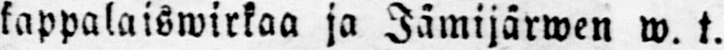kappalaiswirkaa ja Jämijärwen w. t.
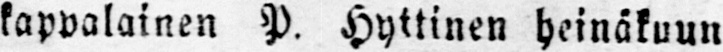kappalainen P. Hyttinen heinäkuun
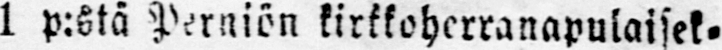1 p:stä Perniön kirkkoherranapulaisek-
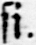si.
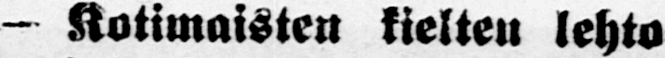- Kotimaisten kielten lehto-
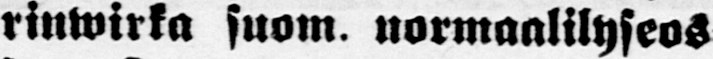rinwirka suom. normaalilyseos-
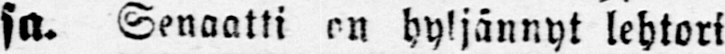sa. Senaatti on hyljännyt lehtori
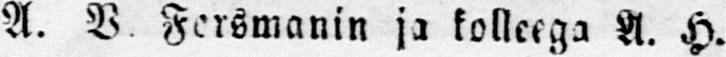A. V Forsmanin ja kolleega A. H.
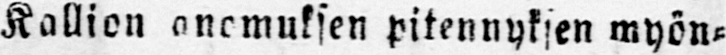Kallion anomuksen pitennyksen myön-
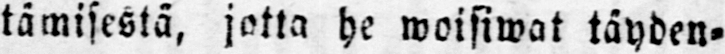tämisestä, jotta he woisiwat täyden-
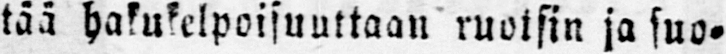tää hakukelpoisuuttaan ruotsin ja suo-
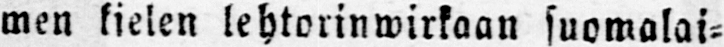men kielen lehtorinwirkaan suomalai-
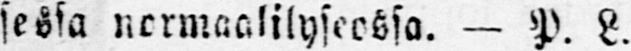sessa normaalilyseossa. — P. L.
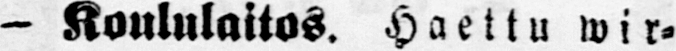- Koululaitos. Haettu wir-
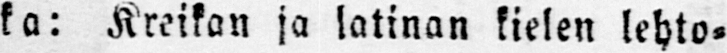ka: Kreikan ja latinan kielen lehto-
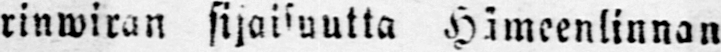rinwiran sijaisuutta Hämeenlinnan
